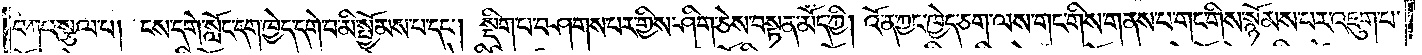བཀའ་སྩལ་པ། ངས་དགེ་སློང་དག་ཁྱེད་དགེ་བ་མི་སྤྱོམས་པ་དང༌། སྡིག་པ་བཤགས་པར་གྱིས་ཤིག་ཅེས་བསྟན་མོད་ཀྱི། འོན་ཀྱང་ཁྱེད་ཅག་ལས་གང་གིས་གནས་པ་གང་གིས་སྙོམས་པར་འཇུག་པ་
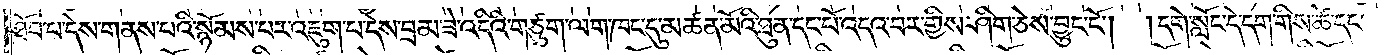ཐོབ་པ་དེས་གནས་པའི་སྙོམས་པར་འཇུག་པ་དེས་བྲམ་ཟེ་འདིའི་གཙུག་ལག་ཁང་དུ་མཚན་མོའི་ཐུན་དང་པོ་འདའ་བར་གྱིས་ཤིག་ཅེས་བྱུང་ངོ༌། །དགེ་སློང་དེ་དག་གིས་ཚེ་དང་
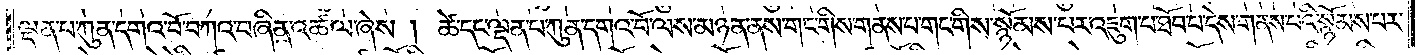ལྡན་པ་ཀུན་དགའ་བོ་བཀའ་བཞིན་འཚལ་ཞེས། ཚེ་དང་ལྡན་པ་ཀུན་དགའ་བོ་ལས་མཉན་ནས་གང་གིས་གནས་པ་གང་གིས་སྙོམས་པར་འཇུག་པ་ཐོབ་པ་དེས་གནས་པའི་སྙོམས་པར་
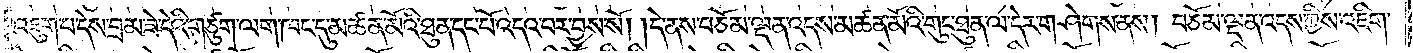འཇུག་པ་དེས་བྲམ་ཟེ་དེའི་གཙུག་ལག་ཁང་དུ་མཚན་མོའི་ཐུན་དང་པོ་འདའ་བར་བྱས་སོ། །དེ་ནས་བཅོམ་ལྡན་འདས་མཚན་མོའི་གུང་ཐུན་ལ་དེར་གཤེགས་ནས། བཅོམ་ལྡན་འདས་ཀྱིས་འཇིག་
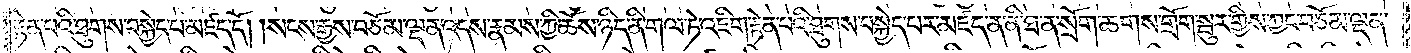རྟེན་པའི་ཐུགས་བསྐྱེད་པ་མཛད་དོ། །སངས་རྒྱས་བཅོམ་ལྡན་འདས་རྣམས་ཀྱི་ཆོས་ཉིད་ནི་གལ་ཏེ་འཇིག་རྟེན་པའི་ཐུགས་བསྐྱེད་པར་མཛད་ན་ནི་ཐ་ན་སྲོག་ཆགས་གྲོག་སྦུར་གྱིས་ཀྱང་བཅོམ་ལྡན་
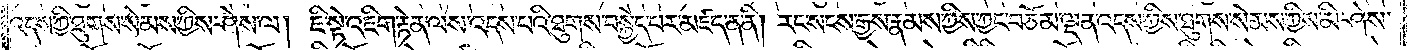འདས་ཀྱི་ཐུགས་སེམས་ཀྱིས་ཤེས་ལ། ཇི་སྟེ་འཇིག་རྟེན་ལས་འདས་པའི་ཐུགས་བསྐྱེད་པར་མཛད་ན་ནི། རང་སངས་རྒྱས་རྣམས་ཀྱིས་ཀྱང་བཅོམ་ལྡན་འདས་ཀྱིས་ཐུགས་སེམས་ཀྱིས་མི་ཤེས་
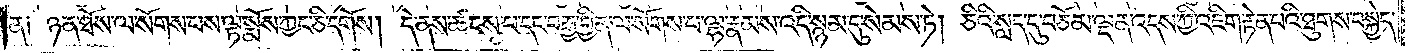ན༑ ཉན་ཐོས་ལ་སོགས་པས་ལྟ་སྨོས་ཀྱང་ཅི་དགོས། དེ་ནས་ཚངས་པ་དང་བརྒྱ་བྱིན་ལ་སོགས་པ་ལྷ་རྣམས་འདི་སྙམ་དུ་སེམས་ཏེ། ཅིའི་སླད་དུ་བཅོམ་ལྡན་འདས་ཀྱི་འཇིག་རྟེན་པའི་ཐུགས་བསྐྱེད་
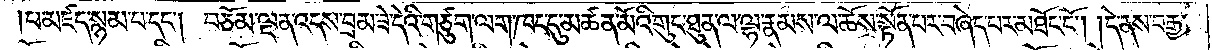པ་མཛད་སྙམ་པ་དང༌། བཅོམ་ལྡན་འདས་བྲམ་ཟེ་དེའི་གཙུག་ལག་ཁང་དུ་མཚན་མོའི་གུང་ཐུན་ལ་ལྷ་རྣམས་ལ་ཆོས་སྟོན་པར་བཞེད་པར་མཐོང་ངོ༌། །དེ་ནས་བརྒྱ་
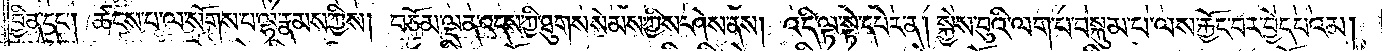བྱིན་དང༌། ཚངས་པ་ལ་སོགས་པ་ལྷ་རྣམས་ཀྱིས། བཅོམ་ལྡན་འདས་ཀྱི་ཐུགས་སེམས་ཀྱིས་ཤེས་ནས། འདི་ལྟ་སྟེ་དཔེར་ན། སྐྱེས་བུའི་ལག་པ་བསྐུམ་པ་ལས་རྐྱོང་བར་བྱེད་པའམ།
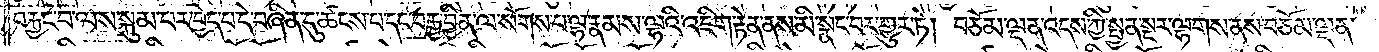བརྐྱང་བ་ལས་སྐུམ་པར་བྱེད་པ་དེ་བཞིན་དུ་ཚངས་པ་དང་བརྒྱ་བྱིན་ལ་སོགས་པ་ལྷ་རྣམས་ལྷའི་འཇིག་རྟེན་ནས་མི་སྣང་བར་གྱུར་ཏེ། བཅོམ་ལྡན་འདས་ཀྱི་སྤྱན་སྔར་ལྷགས་ནས་བཅོམ་ལྡན་
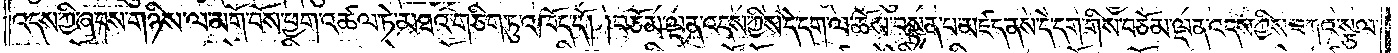འདས་ཀྱི་ཞབས་གཉིས་ལ་མགོ་བོས་ཕྱག་འཚལ་ཏེ་མཐའ་གཅིག་ཏུ་འཁོད་དོ། །བཅོམ་ལྡན་འདས་ཀྱིས་དེ་དག་ལ་ཆོས་བསྟན་པ་མཛད་ནས་དེ་དག་གིས་བཅོམ་ལྡན་འདས་ཀྱིས་བཀའ་སྩལ་
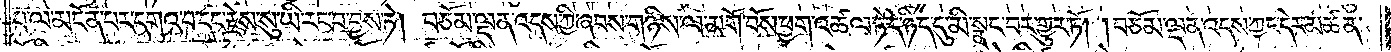པ་ལ་མངོན་པར་དགའ་བ་དང་རྗེས་སུ་ཡི་རང་བ་བྱས་ཏེ། བཅོམ་ལྡན་འདས་ཀྱི་ཞབས་གཉིས་ལ་མགོ་བོས་ཕྱག་འཚལ་ཏེ་དེ་ཉིད་དུ་མི་སྣང་བར་གྱུར་ཏོ། །བཅོམ་ལྡན་འདས་ཀྱང་དེར་མཚན་
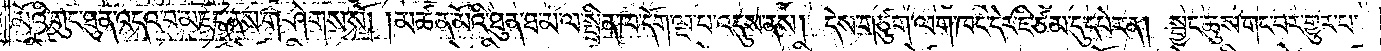མོའི་གུང་ཐུན་འདའ་བ་མཛད་ནས་གཤེགས་སོ། །མཚན་མོའི་ཐུན་ཐ་མ་ལ་སྤྲིན་ཁ་དོག་ལྔ་པ་འདུས་ནས། དེས་གཙུག་ལག་ཁང་དེར་ཇི་ཙམ་དུ་དཔེར་ན། སྦྱང་ཆུས་གང་བར་གྱུར་པ་
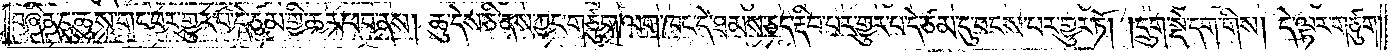བཞིན་དུ་ཆུས་གང་བར་གྱུར་པ་དེ་ཙམ་གྱི་ཆར་ཕབ་ནས། ཆུ་དེས་ཅི་ནས་ཀྱང་གཙུག་ལག་ཁང་དེ་ཐམས་ཅད་རྡིབ་པར་གྱུར་དེ་ཙམ་དུ་བངས་པར་གྱུར་ཏོ། །དྲུག་སྡེ་དག་གིས། དེ་ལྟར་གཙུག་
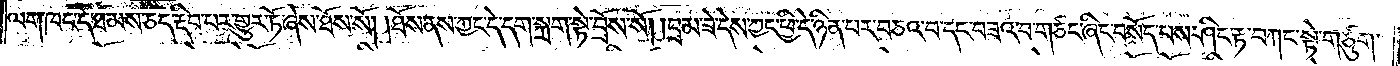ལག་ཁང་དེ་ཐམས་ཅད་རྡིབ་པར་གྱུར་ཏོ་ཞེས་ཐོས་སོ། །ཐོས་ནས་ཀྱང་དེ་དག་སྐྲག་སྟེ་བྲོས་སོ། །བྲམ་ཟེ་དེས་ཀྱང་ཕྱི་དེ་ཉིན་པར་བཅའ་བ་དང་བཟའ་བ་གཙང་ཞིང་བསོད་པས་ཤིང་རྟ་བཀང་སྟེ་གཙུག་
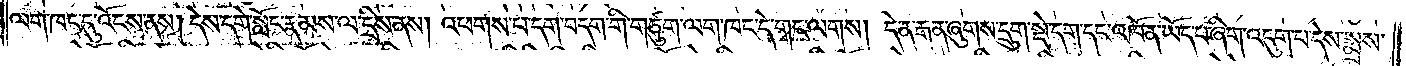ལག་ཁང་དུ་འོངས་ནས། དེས་དགེ་སློང་རྣམས་ལ་དྲིས་ནས། འཕགས་པ་དག་བདག་གི་གཙུག་ལག་ཁང་དེ་གང་ལགས། དེ་ན་རྒན་ཞུགས་དྲུག་སྡེ་དག་དང་འཁོན་ཡོད་པ་ཞིག་འདུག་པ་དེས་སྨྲས་
